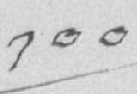༡༠༠
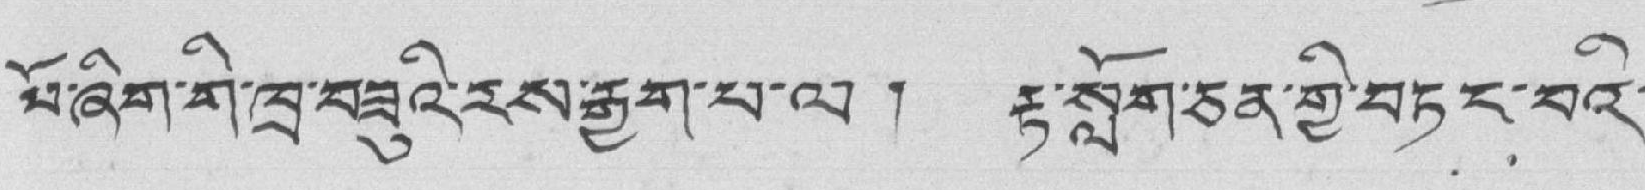པོ་ཞིག་གི་ཁྲ་བཟུའི་རས་རྒྱག་པ་ལ ། རྟ་སློག་ཅན་གྱི་བཏང་བའི་
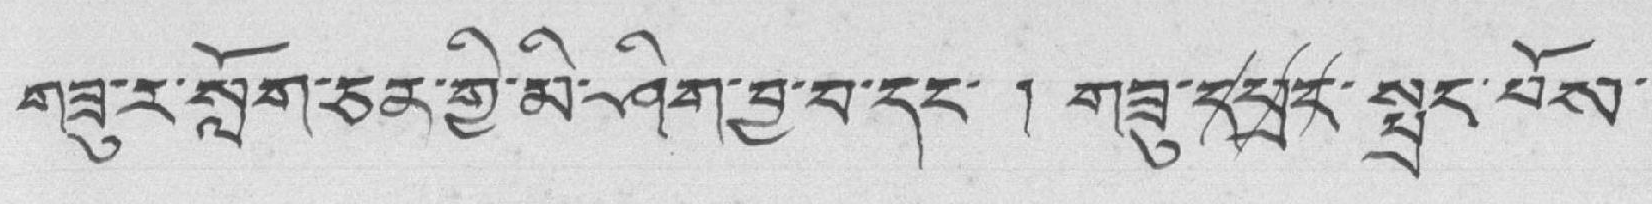གཟུ་ར་སློག་ཅན་གྱི་མི་ཤིག་བྱ་བ་དང་ ། གཟུ་དཔྲང་སྤྲང་པོས་
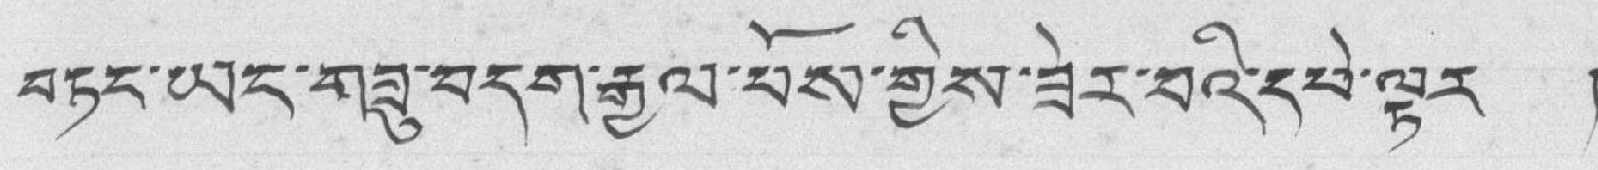བཏང་ཡང་གཟུ་བདག་རྒྱལ་པོས་གྱིས་ཟེར་བའི་དཔེ་ལྟར །
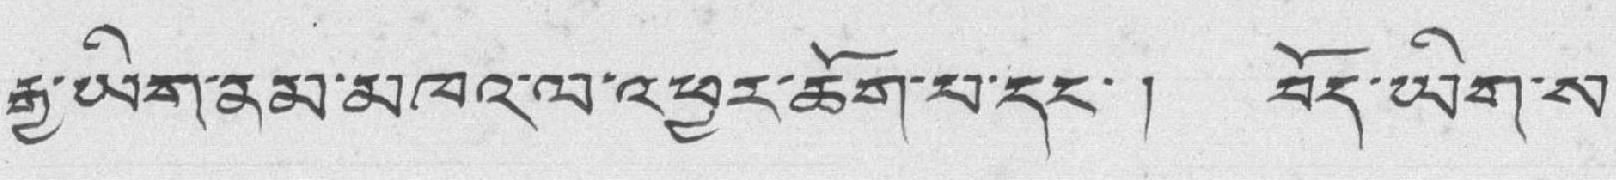རྒྱ་ཡིག་ནམ་མཁའ་ལ་འཕྱར་ཆོག་པ་དང་། བོད་ཡིག་ས་
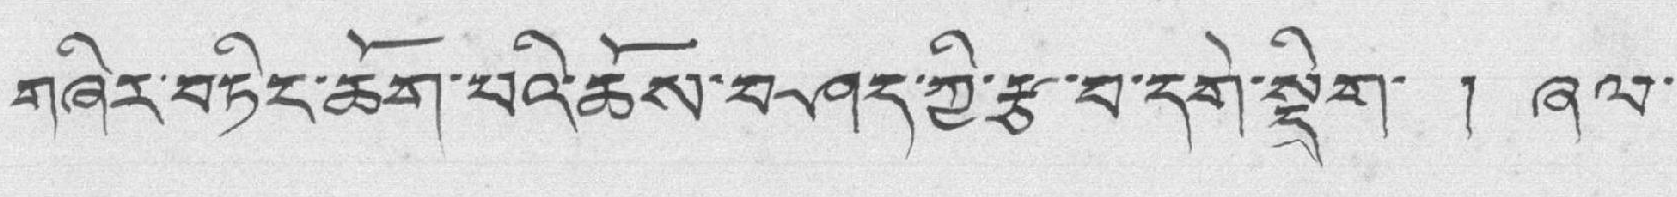གཞིར་བཏིང་ཆོག་པའི་ཆོས་བཤད་ཀྱི་རྩ་བ་དགེ་སྡིག་ ། ཞལ་
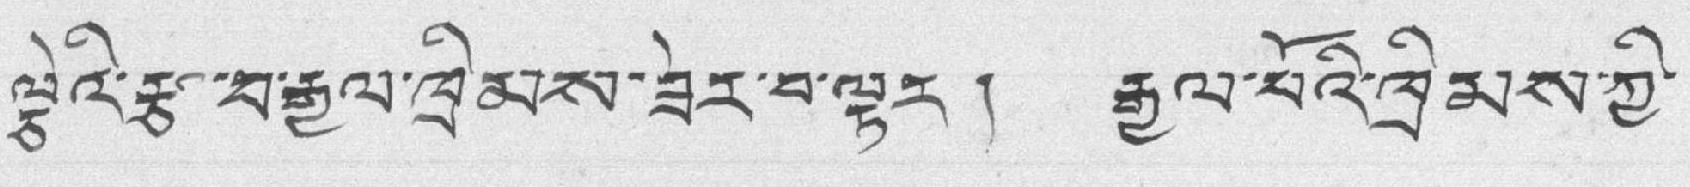ལྕེའི་རྩ་བ་རྒྱལ་ཁྲིམས་ཟེར་བ་ལྟར ། རྒྱལ་པོའི་ཁྲིམས་ཀྱི་
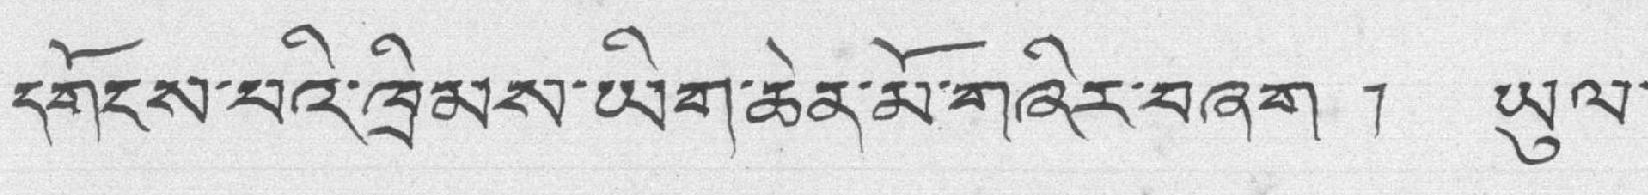དགོངས་པའི་ཁྲིམས་ཡིག་ཆེན་མོ་གཞིར་བཞག ། ཡུལ་
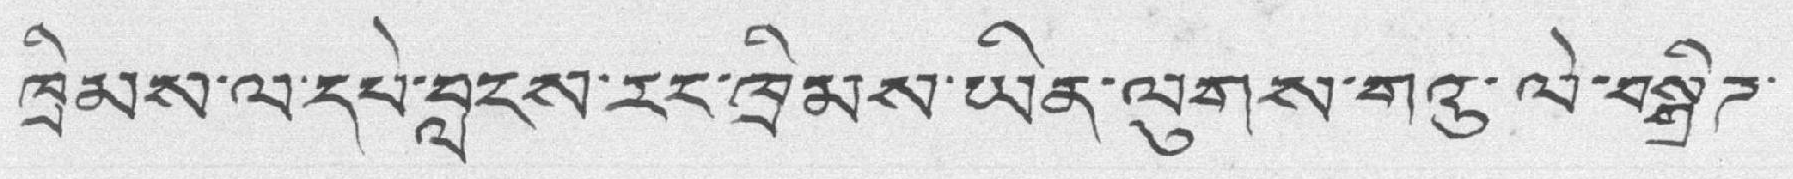ཁྲིམས་ལ་དཔེ་བླངས་རང་ཁྲིམས་ཡིན་ལུགས་གའུ་ལེ་བསྒྲིཌ་
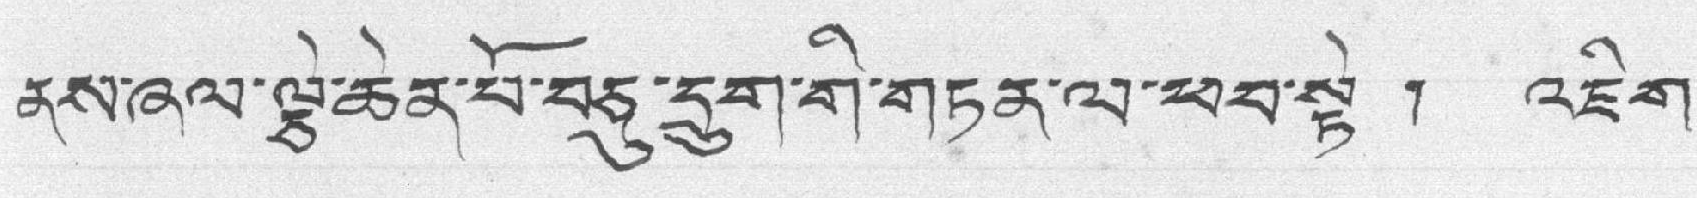ནས་ཞལ་ལྕེ་ཆེན་པོ་བདུ་དྲུག་གི་གཏན་ལ་ཕབ་སྟེ ། འཇིག་
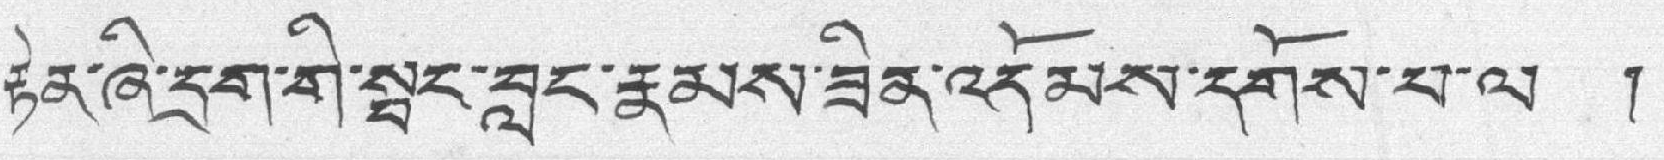རྟེན་ཞི་དྲག་གི་སྦང་བླང་རྣམས་ཟིན་འདོམས་དགོས་པ་ལ །
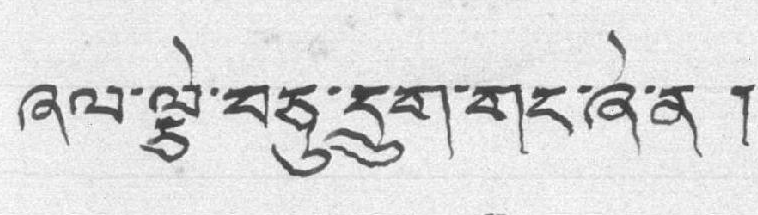ཞལ་ལྕེ་བཅུ་དྲུག་གང་ཞེ་ན།
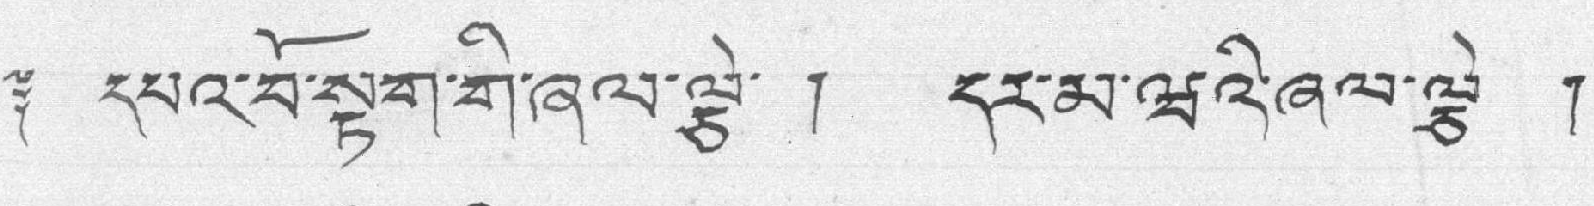༈ དཔའ་བོ་སྟག་གི་ཞལ་ལྕེ་ ། དར་མ་ཝའི་ཞལ་ལལྕེ །
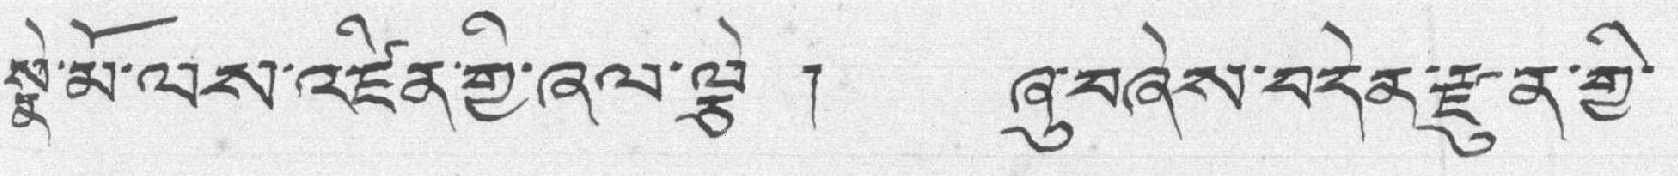སྣེ་མོ་ལས་འཛིན་གྱི་ཞལ་ལྕེ ། ཞུ་བཞེས་བདེན་རྫུན་གྱི་
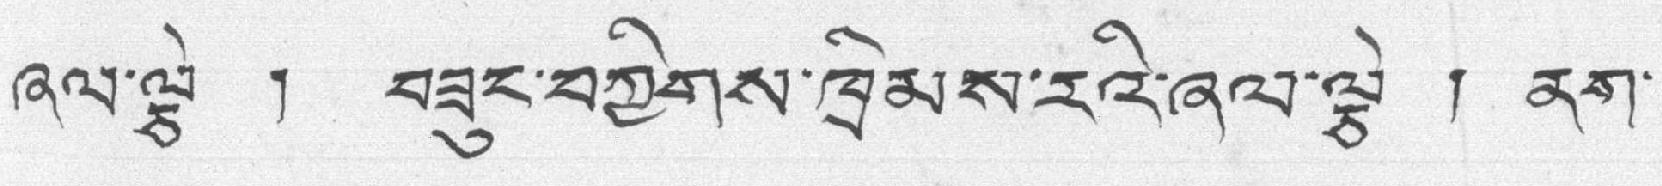ཞལ་ལྕེ ། བཟུང་བཀྱིགས་ཁྲིམས་རའི་ཞལ་ལྕེ ། ནག་
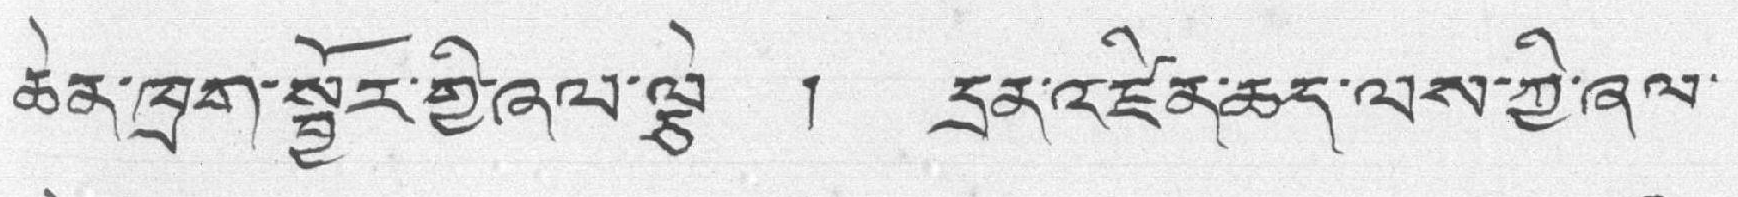ཆེན་ཁྲག་སྦྱོར་གྱི་ཞལ་ལྕེ ། དྲན་འཛིན་ཆད་ལས་ཀྱི་ཞལ་
